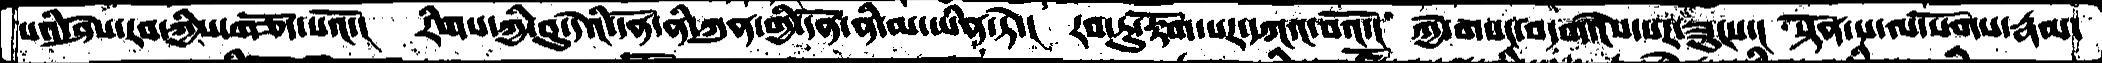པའི་ཤེས་རབ་ཀྱིས་གཅོད་པའོ་།  རིགས་ཀྱི་བུ་དེའི་དོན་ནི་ཀུན་གྱི་དོན་ནི་མ་ཡིན་ཏེ་།  རབ་ཏུ་རྟོག་པར་དཀའ་བའོ་།  ཀྱེ་གསང་བདག་ངེས་པར་ཟུངས་།  སྟོན་པ་ལ་སོགས་རྣམ་
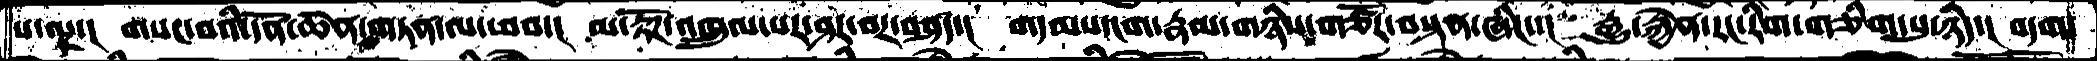པ་ལྔ་།  གསང་བའི་དོན་ཆེན་གཏན་ལ་ཕབ་།  མ་རྟོཌ་འཁྲུལ་པར་ཤར་བར་བཤད་།  གདམས་ངག་རྣམ་གཉིས་གཙོར་བསྟན་ཞིང་།  རྒྱུ་རྐྱེན་རང་རིག་གཅིག་པུ་ཉིད་།  བདག་
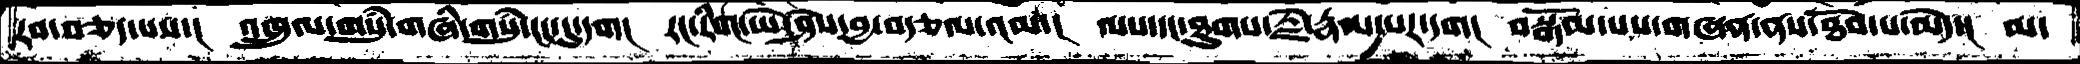རབ་བཅད་པས་།   འཁྲུལ་གསུཾ་གཞི་གསུཾ་ངང་དུ་དག།  རང་རིག་ཡེ་ཤེས་བྱ་བརྩལ་འམ་།  ལས་དང་ཐུགས་རྗེ་རྣམ་པར་དག།  བསྒོམ་པས་གཞན་ནས་ཐོབ་པ་མེད་།  མ་
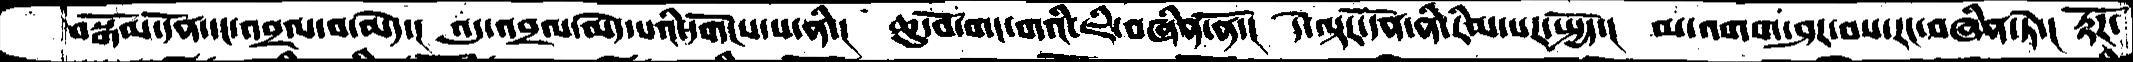བསྒོམ་དོན་དང་འབྲལ་བ་མེད་།  འདུ་འབྲལ་མེད་པའི་དགོངས་པ་ནི་།  ཆུ་བོ་གང་གའི་ཇི་བཞིན་ནོ་།  དེ་ལྟར་དོན་ནི་རིམ་པར་སྤྱོད་།  མ་འགག་ཤར་བས་རང་བཞིན་ཏེ་།   རྟོཌ་
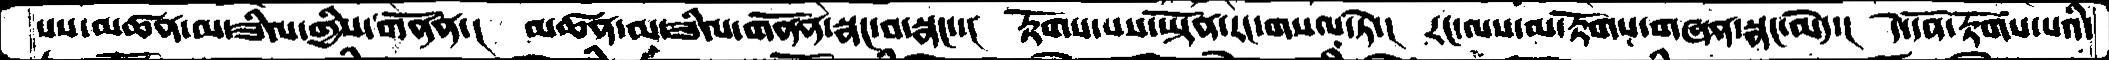པས་མཚན་མ་ཟིལ་གྱིས་གནོན་།    མཚན་མ་ཟིལ་གནོན་སྣང་བ་སྣང་་།  རྟོགས་པས་ཡྟོན་རང་གསལ་ཏེ་།  རང་ལས་མ་རྟོགས་གཞན་སྣང་མེད་།  དེ་དོན་རྟོགས་པའི་
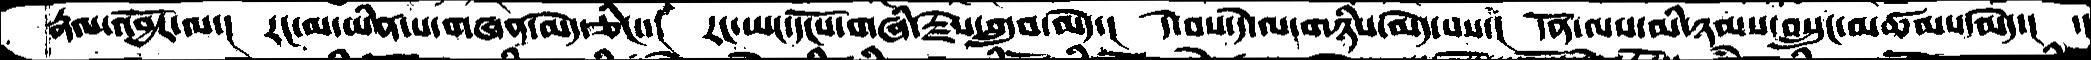རྣལ་འབྱོར་ལ་།  རང་མ་ཡིན་པ་གཞན་མེད་ཅིང་་།  རང་ཡང་དངོས་བཞི་རྗེས་གྲུབ་མེད་།  དེ་བས་དེ་ལ་གཉིས་མེད་པས་།  དོན་ལས་མི་ཉམས་བསྲུང་མཚམས་མེད་།  ་།
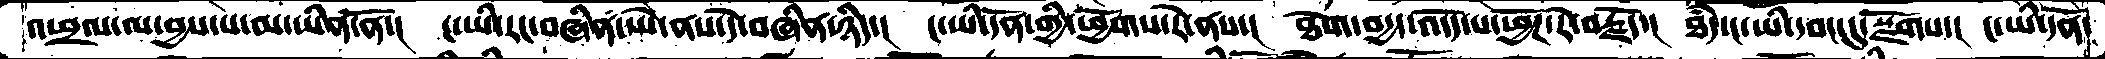འཕྲལ་ལ་བྱས་པ་མ་ཡིན་ནོ་།  ང་ཡི་རང་བཞིན་ཡེ་ནས་དེ་བཞིན་ཉིད་།   ང་ཡི་དོན་གྱི་ཕྱོགས་རེ་ནས་།  ཐེག་བདྱད་འདོད་པ་ཕྱོཌ་རེ་བརྗོད་།   ཐཾད་ང་ཡི་དབང་དུ་སྫོགས་།  ང་ཡི་དོན་
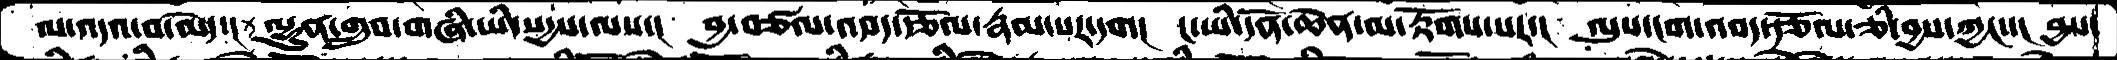ལ་འདའ་བ་མེད་།  ལྷུན་གྲུབ་གཞི་ཡི་སདྱས་ལས་།   བྱ་བཙལ་འབད་རྩོལ་རྣམ་པར་དག།  ང་ཡི་དོན་ཆེན་མ་རྟོགས་པར་།  ལུས་ངག་འབད་རྩོལ་ཅི་བྱས་ཀྱང་་།  བྱས་
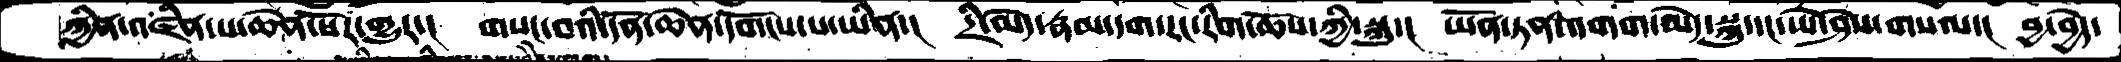ཀྱིན་འཛིན་པ་ཆེན་པོར་གྱུར་།  གསང་བའི་དོན་ཆེན་དགོངས་པ་ཡིན་།  དྲི་མེད་རྣམ་དག་རང་རིག་ཆོས་ཀྱི་སྐུ་།  ཡོན་ཏན་འགག་མེད་སྐུ་དང་ཡེ་ཤེས་གསལ་།  བྱ་བྱེད་
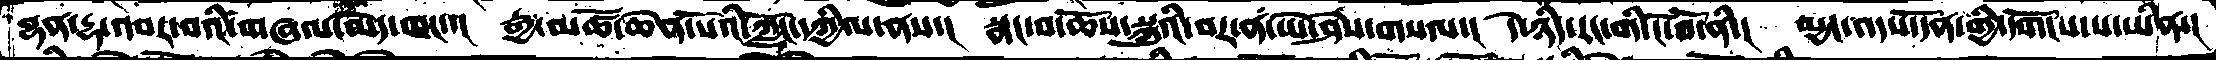བྷན་ཌྷ་འབར་བའི་གཞལ་མེད་ཁང་་།  རྒྱ་མཚོ་ཆེན་པོའི་ཀློང་དཀྱིལ་ནས་།  སྣང་བ་ཆོས་སྐུའི་བར་ན་ཡེ་ཤེས་གསལ་།  དེ་ཉིད་རང་གི་ངོ་བོ་ནི་།  མྱང་འདས་དོན་གྱི་དགོངས་་པ་ཡིན་།
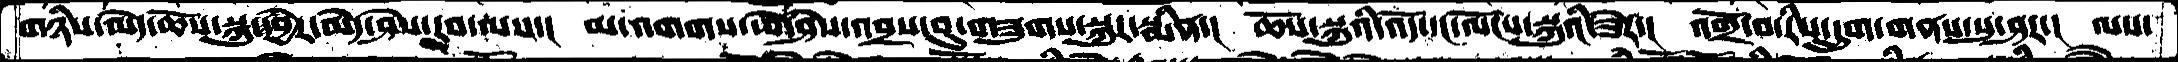གཉིས་མེད་ཆོས་སྐུ་དབྱེར་མེད་ཤེས་རབ་ལས་།  མ་འགགས་ཡེ་ཤེས་འབྲས་བུ་གཟུགས་སྐུར་སྨིན་།  ཆོས་སྐུའི་འོད་དང་ལོངས་སྐུའི་ཟེར་།  འགྲོ་བ་རིས་དྲུག་གནས་སུ་ཤར་།  ལས་
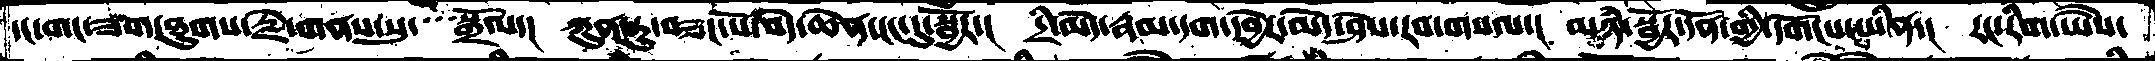དང་གང་ཟག་ཐུགས་རྗེ་གནས་སུ་་་སྒྲོལ་།  ཀུན་ཏུ་བཟང་པོ་བདེ་ཆེན་ངང་དུ་སྦྱོར་།  དྲི་མེད་རྣམ་དག་དབྱེར་མེད་ཤེས་རབ་གསལ་། མཉཾ་སྦྱོར་དོན་གྱི་དགོངས་པ་ཡིན་། རང་རིག་ཡཻས་
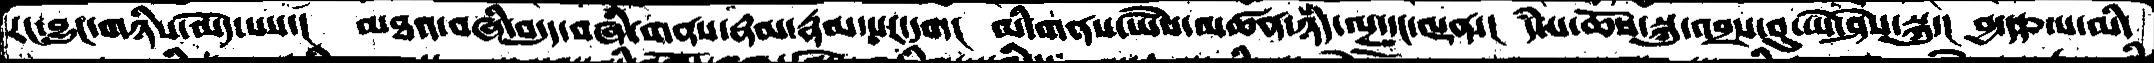རང་བྱུང་གཉིས་མེད་པས་།  མཐའ་བཞི་བདུན་བཞི་གནས་རྣམ་རྣམ་པར་དག།  མི་གནས་ཡཻས་མཚན་ཉིད་ལྔ་དང་ལྡན་།  དཾ་པ་ཆོས་སྐུ་འབྲས་བུ་ཡེ་ཤེས་སྐུ་།  བྱ་རྩལ་མི་
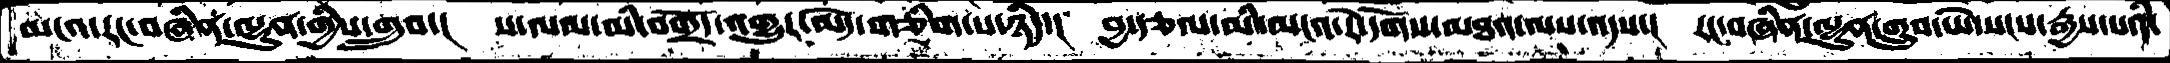མངའ་རང་བཞིན་ལྷུན་གྱིས་གྲུབ་།  ས་ལམ་མི་བགྲོད་འགྱུར་མེད་གཅིག་པ་ཉིད་།  བྱ་རྩལ་མི་མངའ་རེ་དོགས་མཐའ་ལས་འདས་།  རང་བཞིན་ལྷུན་གྲུབ་ཡེ་སངས་རྒྱས་པའི་
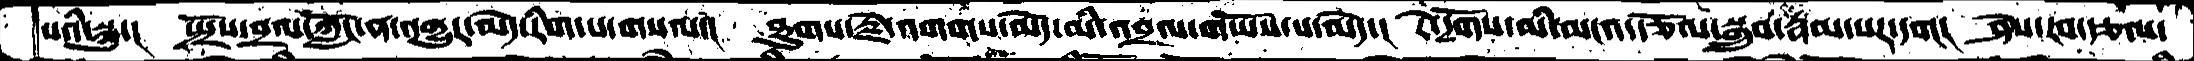པའི་སྐུ་།  སྤྲོས་བྲལ་ཀློང་ན་འགྱུར་མེད་རིག་པ་གསལ་།  ཐུགས་རྗེ་འགགས་མེད་མི་འབྲལ་གཡོས་པ་མེད་།  རེ་དོགས་མི་མངའ་རྩོལ་སྒྲུབརྣམ་པར་དག།  ཤེས་རབ་རྩལ་
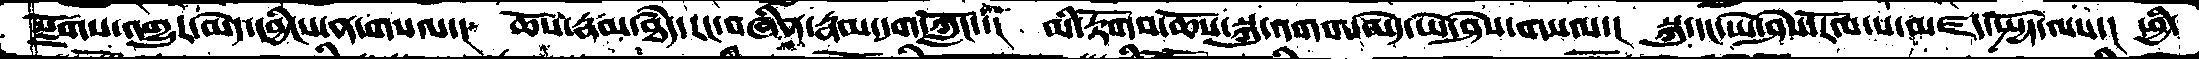སྫོགས་འགྱུར་མེད་དབྱིངས་ན་གསལ་།  ཆོས་རྣམ་ཐཾད་རང་བཞིན་རྣམ་དག་ཀློང་་།  མི་རྟོགས་ཆོས་སྐུ་འགག་མེད་ཡེ་ཤེས་གསལ་།  སྐུ་དང་ཡེ་ཤེས་རོལ་པ་མཛད་སྤྱོད་ལས་།  ཕྱི་
